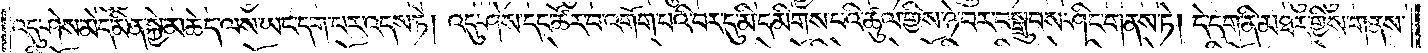འདུ་ཤེས་མེད་མིན་སྐྱེ་མཆེད་ལས་ཡང་དག་པར་འདས་ཏེ། འདུ་ཤེས་དང་ཚོར་བ་འགོག་པའི་བར་དུ་མི་དམིགས་པའི་ཚུལ་གྱིས་ཉེ་བར་བསྒྲུབས་ཤིང་གནས་ཏེ། དེ་དག་ནི་མཐར་གྱིས་གནས་
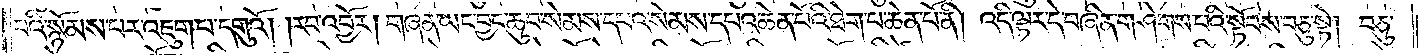པའི་སྙོམས་པར་འཇུག་པ་དགུའོ། །རབ་འབྱོར། གཞན་ཡང་བྱང་ཆུབ་སེམས་དཔའ་སེམས་དཔའ་ཆེན་པོའི་ཐེག་པ་ཆེན་པོ་ནི། འདི་ལྟར་དེ་བཞིན་གཤེགས་པའི་སྟོབས་བཅུ་སྟེ། བཅུ་
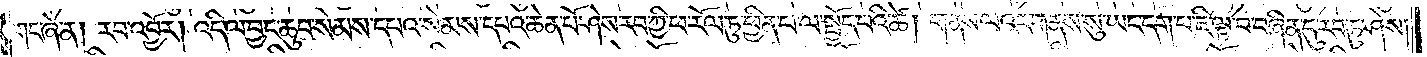གང་ཞེ་ན། རབ་འབྱོར། འདི་ལ་བྱང་ཆུབ་སེམས་དཔའ་སེམས་དཔའ་ཆེན་པོ་ཤེས་རབ་ཀྱི་ཕ་རོལ་ཏུ་ཕྱིན་པ་ལ་སྤྱོད་པའི་ཚེ། གནས་ལའང་གནས་སུ་ཡང་དག་པར་ཇི་ལྟ་བ་བཞིན་དུ་རབ་ཏུ་ཤེས།
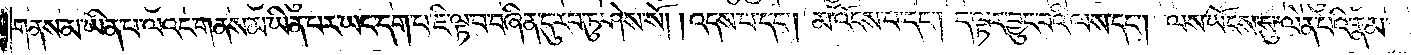གནས་མ་ཡིན་པ་ལའང་གནས་མ་ཡིན་པར་ཡང་དག་པ་ཇི་ལྟ་བ་བཞིན་དུ་རབ་ཏུ་ཤེས་སོ། །འདས་པ་དང༌། མ་འོངས་པ་དང༌། ད་ལྟར་བྱུང་བའི་ལས་དང༌། ལས་ཡོངས་སུ་ལེན་པའི་རྣམ་
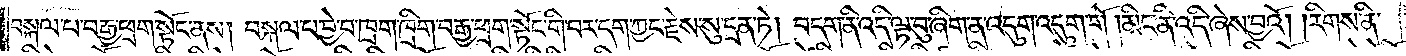བསྐལ་པ་བརྒྱ་ཕྲག་སྟོང་ནས། བསྐལ་པ་བྱེ་བ་ཁྲག་ཁྲིག་བརྒྱ་ཕྲག་སྟོང་གི་བར་དག་ཀྱང་རྗེས་སུ་དྲན་ཏེ། བདག་ནི་འདི་ལྟ་བུ་ཞིག་ན་འདུག་འདུག་གོ །མིང་ནི་འདི་ཞེས་བྱའོ། །རིགས་ནི་
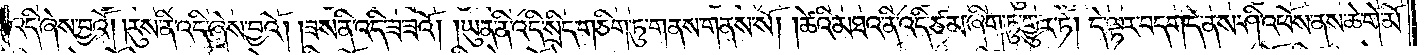འདི་ཞེས་བྱའོ། །རུས་ནི་འདི་ཞེས་བྱའོ། །ཟས་ནི་འདི་ཟ་ཟའོ། །ཡུན་ནི་འདི་སྲིད་གཅིག་ཏུ་གནས་གནས་སོ། །ཚེའི་མཐའ་ནི་འདི་ཙམ་ཞིག་ཏུ་གྱུར་ཏེ། དེ་ལྟར་བདག་དེ་ནས་ཤི་འཕོས་ནས་ཆེ་གེ་མོ་
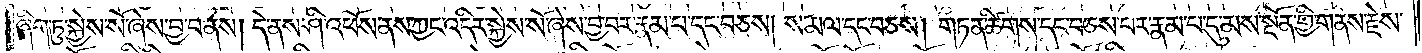ཞིག་ཏུ་སྐྱེས་སོ་ཞེས་བྱ་བ་ནས། དེ་ནས་ཤི་འཕོས་ནས་ཀྱང་འདིར་སྐྱེས་སོ་ཞེས་བྱ་བར་རྣམ་པ་དང་བཅས། ས་མལ་དང་བཅས། གཏན་ཚིགས་དང་བཅས་པར་རྣམ་པ་དུ་མས་སྔོན་གྱི་གནས་རྗེས་
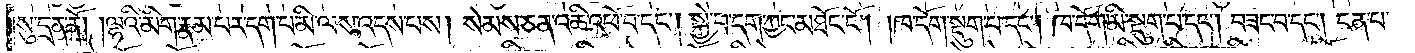སུ་དྲན་ནོ། །ལྷའི་མིག་རྣམ་པར་དག་པ་མི་ལས་འདས་པས། སེམས་ཅན་འཆི་འཕོ་བ་དང༌། སྐྱེ་བ་དག་ཀྱང་མཐོང་ངོ༌། །ཁ་དོག་སྡུག་པ་དང༌། ཁ་དོག་མི་སྡུག་པ་དང༌། བཟང་བ་དང༌། ངན་པ་
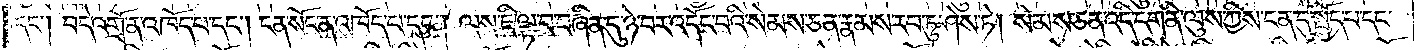དང༌། བདེ་འགྲོ་ན་འཁོད་པ་དང༌། ངན་སོང་ན་འཁོད་པ་དང༌། ལས་ཇི་ལྟ་བ་བཞིན་དུ་ཉེ་བར་འདོད་བའི་སེམས་ཅན་རྣམས་རབ་ཏུ་ཤེས་ཏེ། སེམས་ཅན་འདི་དག་ནི་ལུས་ཀྱིས་ངན་དུ་སྤྱོད་པ་དང་
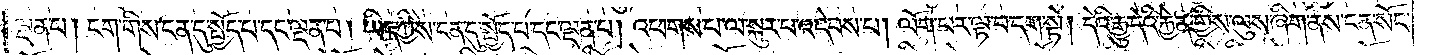ལྡན་པ། ངག་གིས་ངན་དུ་སྤྱོད་པ་དང་ལྡན་པ། ཡིད་ཀྱིས་ངན་དུ་སྤྱོད་པ་དང་ལྡན་པ། འཕགས་པ་ལ་སྐུར་བ་འདེབས་པ། ལོག་པར་ལྟ་བ་དག་སྟེ། དེའི་རྒྱུ་དེའི་རྐྱེན་གྱིས་ལུས་ཞིག་ནས་ངན་སོང་
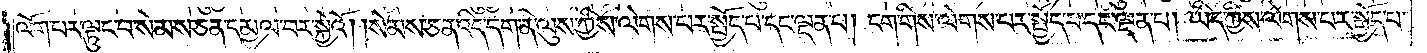ལོག་པར་ལྟུང་བ་སེམས་ཅན་དམྱལ་བར་སྐྱེའོ། །སེམས་ཅན་འདི་དག་ནི་ལུས་ཀྱིས་ལེགས་པར་སྤྱོད་པ་དང་ལྡན་པ། ངག་གིས་ལེགས་པར་སྤྱོད་པ་དང་ལྡན་པ། ཡིད་ཀྱིས་ལེགས་པར་སྤྱོད་པ་
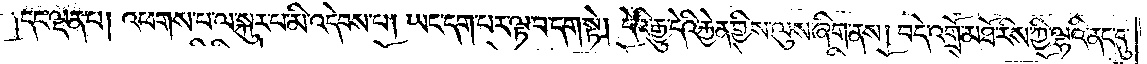དང་ལྡན་པ། འཕགས་པ་ལ་སྐུར་པ་མི་འདེབས་པ། ཡང་དག་པར་ལྟ་བ་དག་སྟེ། དེའི་རྒྱུ་དེའི་རྐྱེན་གྱིས་ལུས་ཞིག་ནས། བདེ་འགྲོ་མཐོ་རིས་ཀྱི་ལྷའི་ནང་དུ་
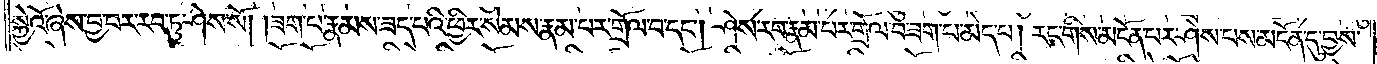སྐྱེའོ་ཞེས་བྱ་བར་རབ་ཏུ་ཤེས་སོ། །ཟག་པ་རྣམས་ཟད་པའི་ཕྱིར་སེམས་རྣམ་པར་གྲོལ་བ་དང༌། ཤེས་རབ་རྣམ་པར་གྲོལ་བ་ཟག་པ་མེད་པ། རང་གིས་མངོན་པར་ཤེས་པས་མངོན་དུ་བྱས་
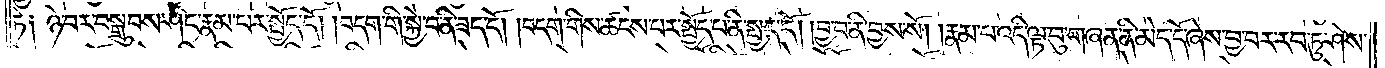ཏེ། ཉེ་བར་བསྒྲུབས་ཤིང་རྣམ་པར་སྤྱོད་དོ། །བདག་གི་སྐྱེ་བ་ནི་ཟད་དོ། །བདག་གིས་ཚངས་པར་སྤྱོད་པ་ནི་སྤྱད་དོ། །བྱ་བ་ནི་བྱས་སོ། །རྣམ་པ་འདི་ལྟ་བུ་གཞན་ནི་མེད་དོ་ཞེས་བྱ་བར་རབ་ཏུ་ཤེས་
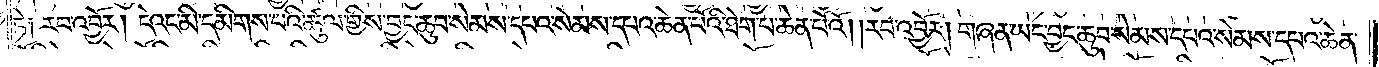ཏེ། རབ་འབྱོར། དེའང་དེ་མི་དམིགས་པའི་ཚུལ་གྱིས་བྱང་ཆུབ་སེམས་དཔའ་སེམས་དཔའ་ཆེན་པོའི་ཐེག་པ་ཆེན་པོའོ། །རབ་འབྱོར། གཞན་ཡང་བྱང་ཆུབ་སེམས་དཔའ་སེམས་དཔའ་ཆེན་
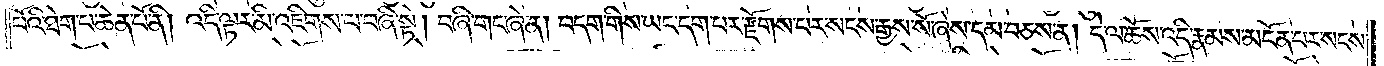པོའི་ཐེག་པ་ཆེན་པོ་ནི། འདི་ལྟར་མི་འཇིགས་པ་བཞི་སྟེ། བཞི་གང་ཞེ་ན། བདག་གིས་ཡང་དག་པར་རྫོགས་པར་སངས་རྒྱས་སོ་ཞེས་དམ་བཅས་ན། དེ་ལ་ཆོས་འདི་རྣམས་མངོན་པར་སངས་
